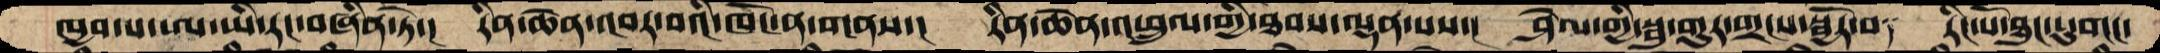ཁྱབ་པ་ཨ་ཡི་རང་བཞིན་ཏེ་།  རིན་ཆེན་འབར་བའི་ཁོང་ན་གནས་།  རིན་ཆེན་འཕྲུལ་གྱི་ཐབས་ལྡན་པས་།   ཤེལ་གྱི་སྦུ་གུར་གྲངས་སྦྱོར་བ༑   རིང་པོ་ཐུང་ངུ་གང་
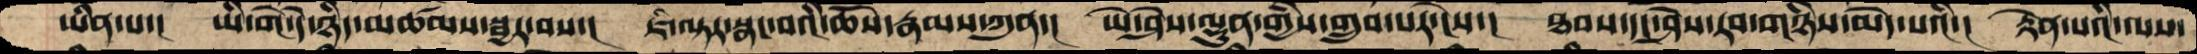ཡིན་པ་།  ཡི་གེ་དེ་ཉིད་མཚམས་སྦྱར་བས་།  ཇི་ལྟར་སྣང་བའི་ཆོས་རྣམས་ཀུན་།  ཡེ་ཤེས་ལྷུན་གྱིས་གྲུབ་པར་ངེས་།  ཐབས་དང་ཤེས་རབ་གཉིས་མེད་པའི་།  རྟེན་པའི་ལས་
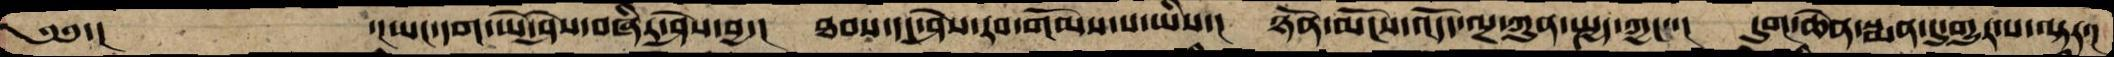༄༅་།   ་།ཡང་དག་ཡེ་ཤེས་བཞིར་ཤེས་བྱ་།  ཐབས་དང་ཤེས་རབ་གོམས་པ་ཡིས་།  ཉོན་མོངས་འདོད་ལྔ་ཀུན་སྤྱད་ཀྱང་་།  དུག་ཆེན་སྨན་དུ་གྱུར་པ་ལྟར་།
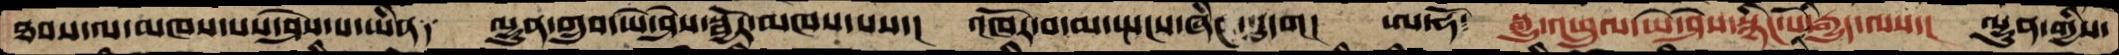ཐབས་ལ་མཁས་པས་ཤེས་པ་ཡིན༑ ལྷུན་གྲུབ་ཡེ་ཤེས་སྦྱོར་མཁས་པས་། འཁོར་བ་མ་སྤངས་ཞིང་དུ་དག་། ཨ་ཧོ༴ སྒྱུ་འཕྲུལ་ཡེ་ཤེས་སྙིང་པོའི་རྒྱུད་ལས་། ལྷུན་གྱིས་
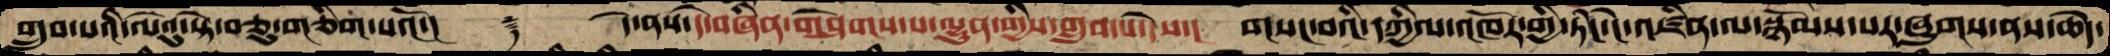གྲུབ་པའི་ལེའུ་སྟེ་བཅུ་གཅིག་པའོ་།     ࿑   དེ་ནས་དེ་བཞིན་གཤེགས་པ་ལྷུན་གྱིས་གྲུབ་པ་དེས་།  གསང་བའི་དཀྱིལ་འཁོར་གྱི་ཏིང་ངེ་འཛིན་ལ་སྙོམས་པར་ཞུགས་ནས་ཆེད་
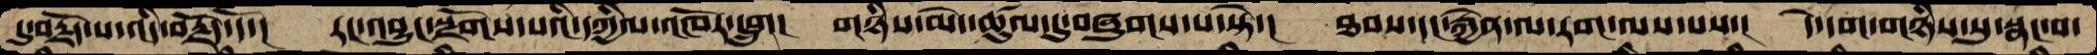དུ་བརྗོད་པ་འདི་བརྗོད་དོ་།   རང་འབྱུང་སྫོགས་པའི་དཀྱིལ་འཁོར་དྲུག།  གཉིས་མེད་ཚུལ་དུ་བཞུགས་པ་སྟེ་།  ཐབས་དང་རྐྱེན་ལ་རག་ལས་པས་།   དེ་དག་གཉིས་སུ་སྣང་བ་
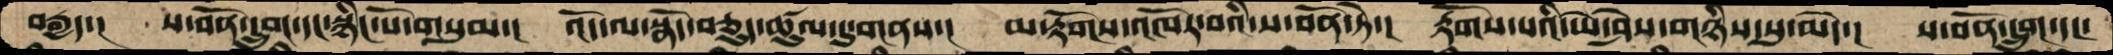བརྒྱད་།  ས་བོན་དྲུག་དང་སྙིང་པོ་གསུམ་།  འོད་ལ་སྣོད་བཅུད་ཚུལ་དུ་གནས་།   མ་རྟོགས་འཁོར་བའི་ས་བོན་ཏེ་།  རྟོགས་པའི་ཡེ་ཤེས་གཉིས་སུ་མེད་།  ས་བོན་དྲུག་དང་
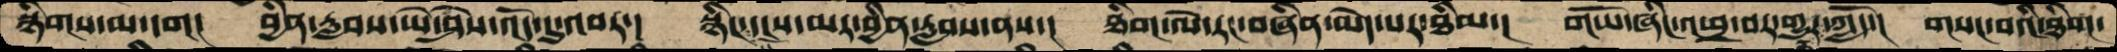སྙིགས་མ་དག། བྱིན་རླབས་ཡེ་ཤེས་འོད་དུ་འབར་། སྙིང་པོ་དངས་མར་བྱིན་རླབས་ནས་། ཐིག་ལེ་རང་བཞིན་མེད་པར་ཐིམ་། གཡོ་ཞིང་འཕྲ་བར་གྱུར་ཀློད་། གསང་བའི་ཐིག་
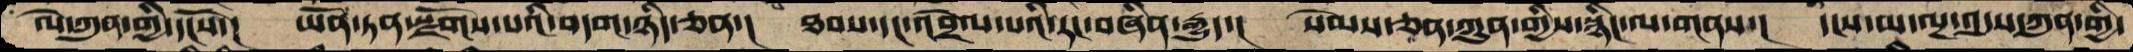ལེ་ཀུན་གྱི་དངོས་། ཡོན་ཏན་སྫོགས་པའི་བདག་ཉིད་ཅན་། ཐབས་དང་འབྲེལ་པའི་རང་བཞིན་རྒྱུད་། སེམས་ཅན་ཀུན་གྱི་སྙིང་ལ་གནས་། དངས་མ་ལྔ་འདུས་ཀུན་གྱི་
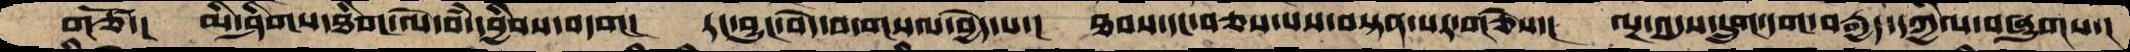གཙོ་།  མི་ཤིགས་ཐིག་ལེ་བཾ་དབྱིབས་བདག།  རང་བྱུང་བདེ་བ་གསལ་བྱེད་པ་།  ཐབས་དང་བཅས་པས་བསྟན་པར་གཅེས་།  ལྔ་འདུས་དྲུག་དག་བརྒྱད་དཀྱིལ་བཞུགས་།
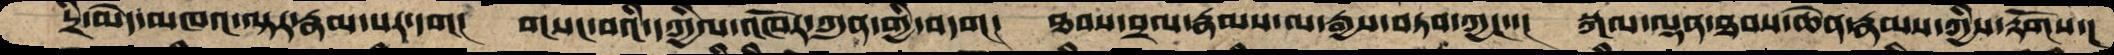དྲི་མེད་མཁའ་ལྟར་རྣམ་པར་དག།   གསང་བའི་དཀྱིལ་འཁོར་ཀུན་གྱི་བདག།  ཐབས་བྲལ་རྣམས་ལ་རྒྱས་བཏབ་ཀྱང་་།  སྐལ་ལྡན་ཐབས་ཆེན་རྣམས་ཀྱིས་རྟོགས་།
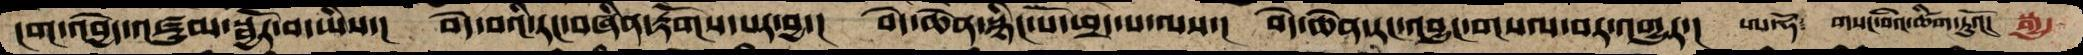ངག་འབྱེདའཛུམ་སྦྱོར་བ་ཡིས་།  བདེ་བའི་རང་བཞིན་རྟོགས་པར་བྱ་།  བདེ་ཆེན་སྙིང་པོ་ཕྲད་པ་ལས་།  བདེ་ཆེན་རང་འབྱུང་གསལ་བར་འགྱུར་།  ཨ་ཧོ༴  གསང་བའི་ཚིག་ཏུའོ།  སྒྱུ་
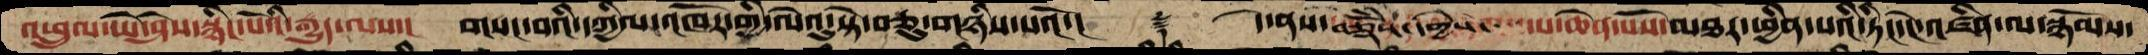འཕྲུལ་ཡེ་ཤེས་སྙིང་པོའི་རྒྱུད་ལས་།   གསང་བའི་དཀྱིལ་འཁོར་གྱི་ལེའུ་སྟེ་བཅུ་གཉིས་པའོ་།      ࿑  དེ་ནས་བཅྡོྃན་དགྱེས་་་་པ་ཆེན་པོས་མཐར་ཕྱིན་པའི་ཏིང་ངེ་འཛིན་ལ་སྙོམས་
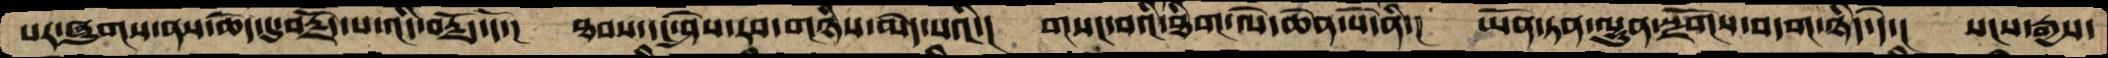པར་ཞུགས་ནས་ཆེད་དུ་བརྗོད་པ་འདི་བརྗོད་དོ་།  ཐབས་དང་ཤེས་རབ་གཉིས་མེད་པའི་།   གསང་བའི་ཐིག་ལེ་ཆེན་པོ་ནི་།  ཡོན་ཏན་ལྷུན་སྫོགས་བདག་ཉིད་དེ་།  སངས་རྒྱས་
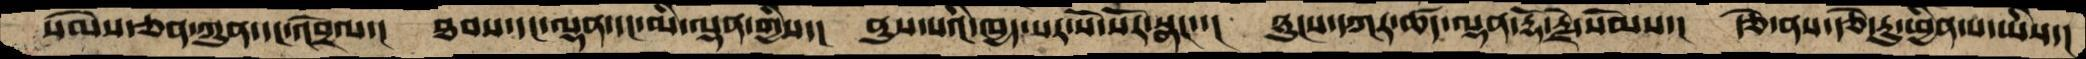སེམས་ཅན་ཀུན་དང་འབྲེལ་།  ཐབས་དང་ལྡན་དང་མི་ལྡན་གྱིས་།  ནུས་པའི་ཁྱད་པར་སོ་སོར་སྣང་་།  ཉུངས་དཀར་ཚད་ལྡན་རྡོ་རྗེ་སེམས་།  རྩེ་ནས་རྩེ་རུ་ཕྱིན་པ་ཡིས་།
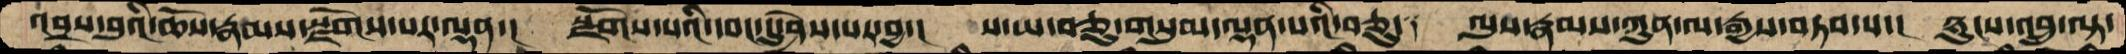འབྲས་བུའི་ཆོས་རྣམས་སྫོགས་པར་ལྡན་། སྫོགས་པའི་དབང་དུ་ཤེས་པར་བྱ་། ས་ཡ་བཅུ་གསུམ་ལྡན་པའི་བཅུ་། ལུས་རྣམས་ཀུན་ལ་རྒྱས་བཏབ་པ་། ཉུངས་འབྲུ་ལྟ་
